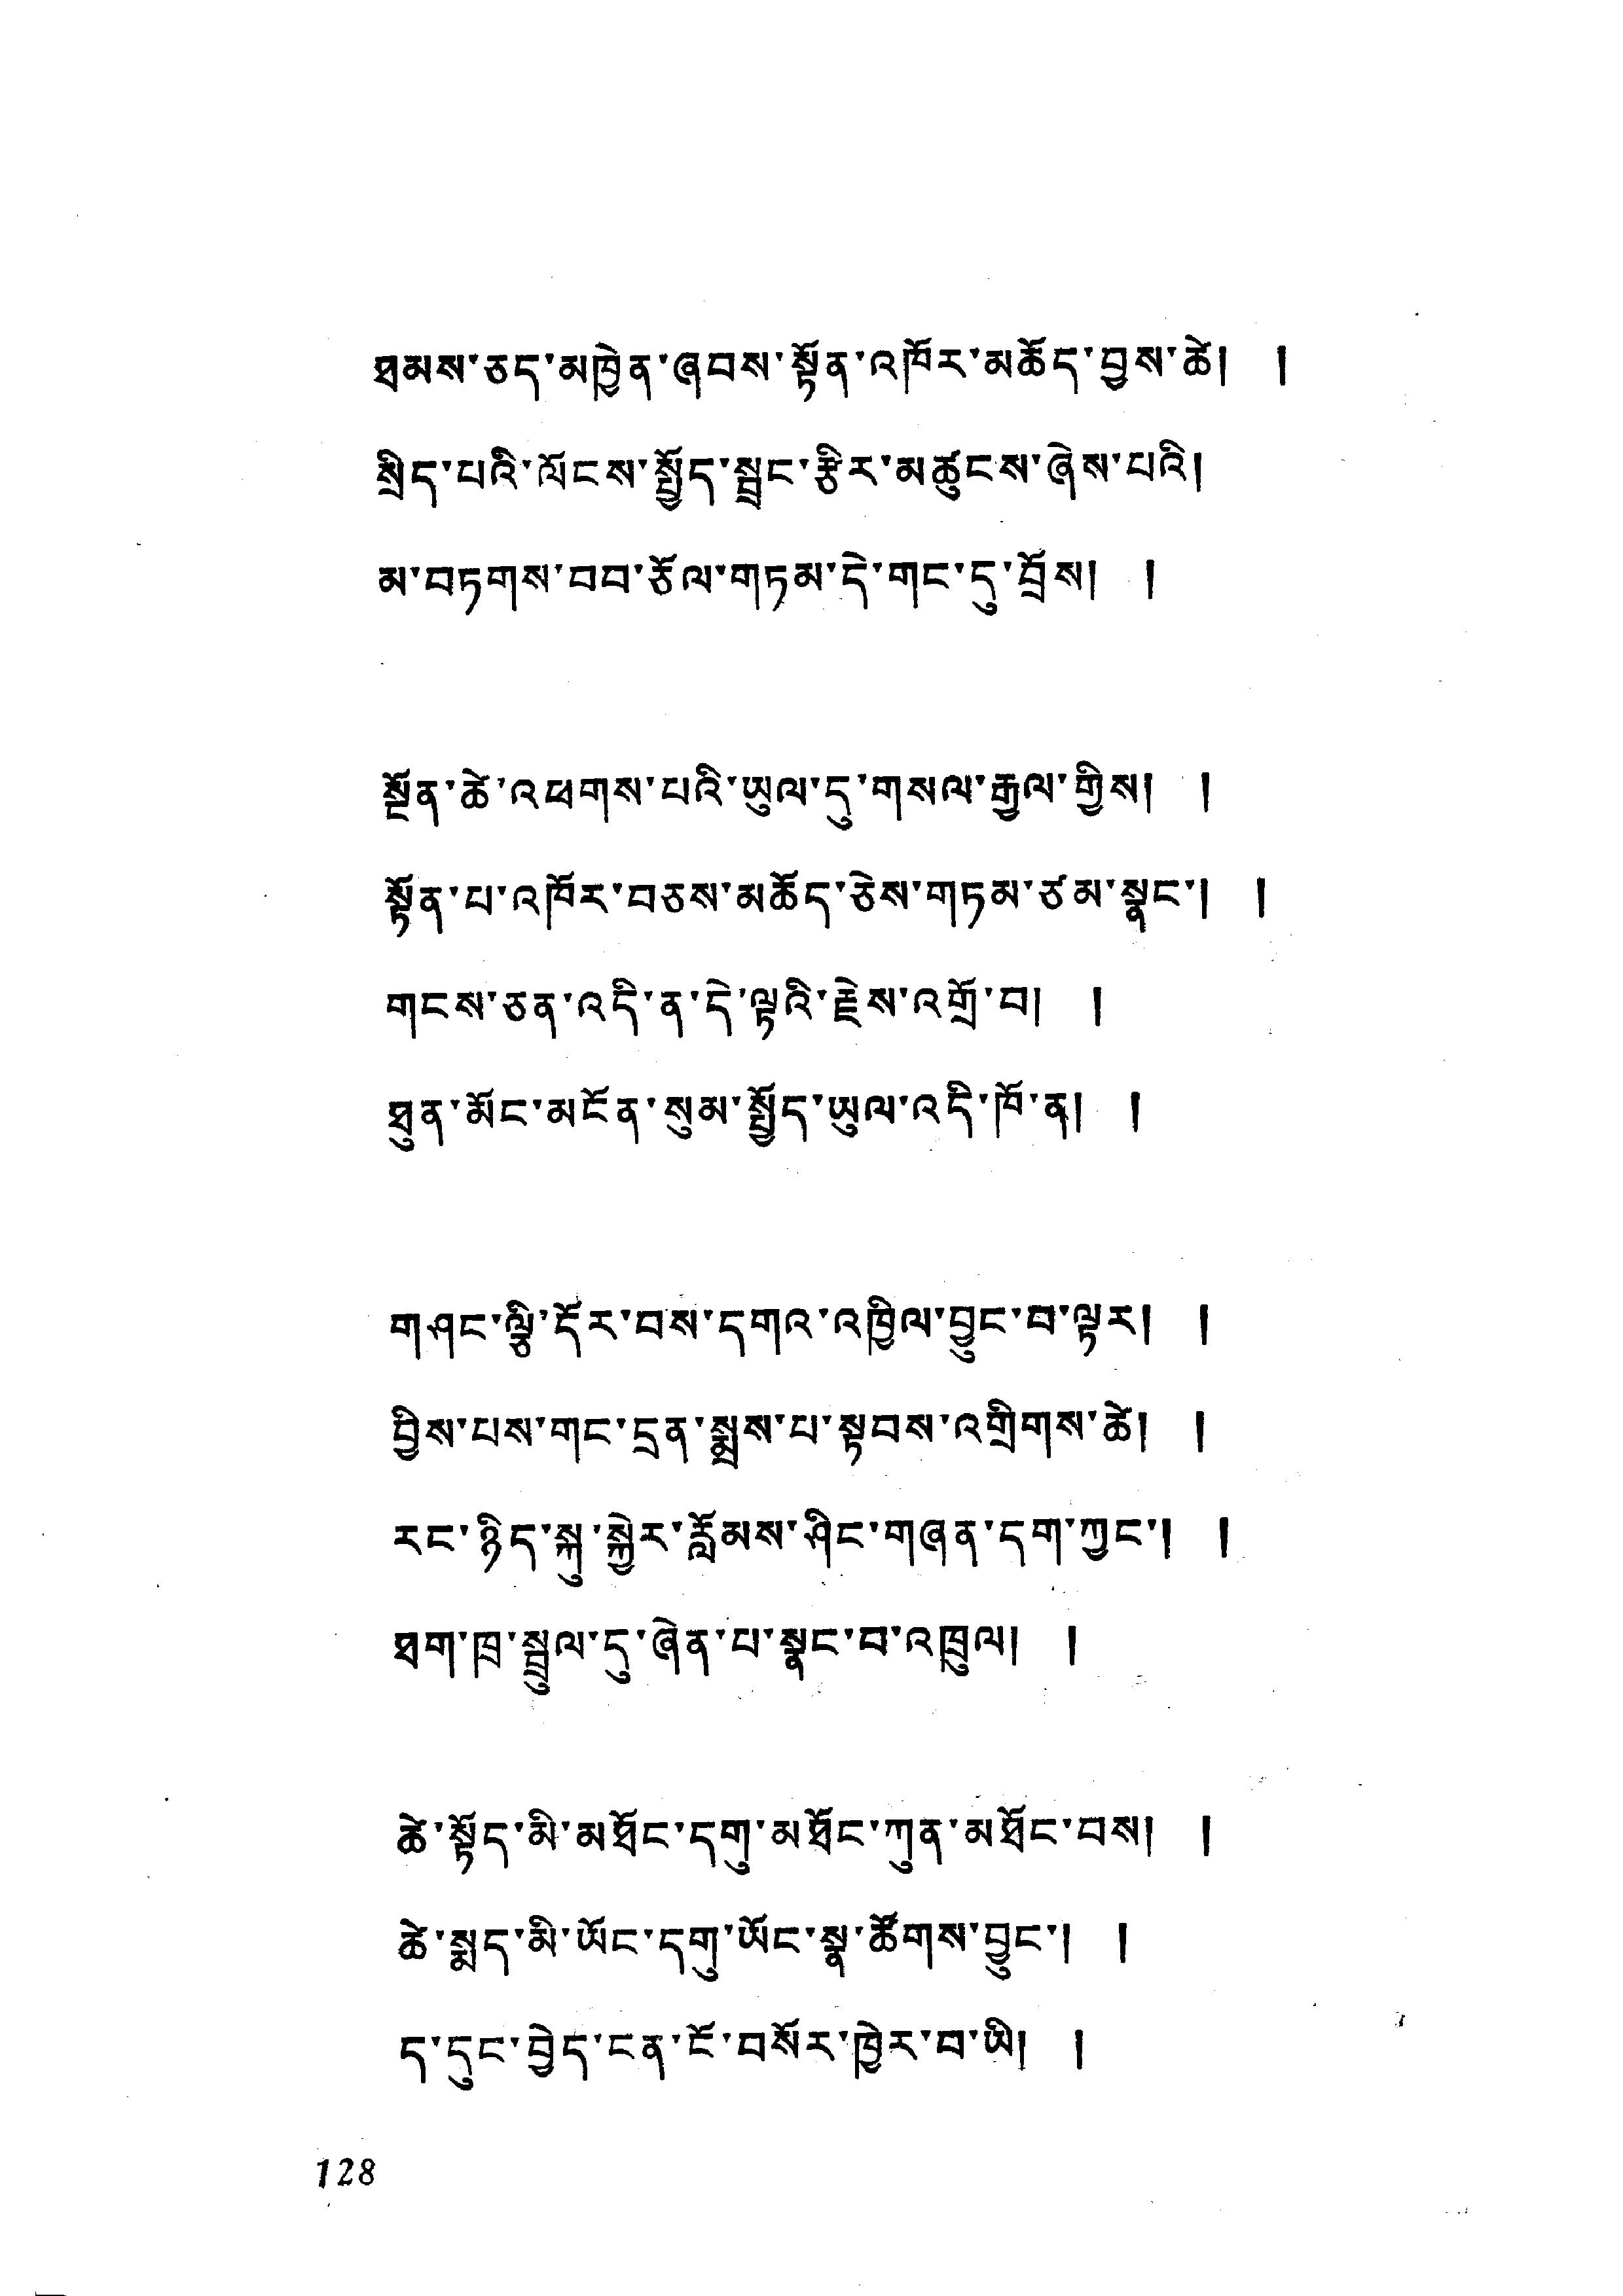ཐམས་ཅད་མཁྱེན་ཞབས་སྟོན་འཁོར་མཆོད་བྱས་ཚེ། །
སྲིད་པའི་ལོངས་སྤྱོད་སྦྲང་རྩིར་མཚུངས་ཞེས་པའི། །
མ་བཏགས་བབ་ཅོལ་གཏམ་དེ་གང་དུ་བྲོས། །
སྔོན་ཚེ་འཕགས་པའི་ཡུལ་དུ་གསལ་རྒྱལ་གྱིས། །
སྟོན་པ་འཁོར་བཅས་མཆོད་ཅེས་གཏམ་ཙམ་སྣང་། །
གངས་ཅན་འདི་ན་དེ་ལྟའི་རྗེས་འགྲོ་བ། །
ཐུན་མོང་མངོན་སུམ་སྤྱོད་ཡུལ་འདི་ཁོ་ན། །
གཤང་ལྕི་དོར་བས་དགའ་འཁྱིལ་བྱུང་བ་ལྟར། །
བྱིས་པས་གང་དྲན་སྨྲས་པ་སྟབས་འགྲིགས་ཚེ། །
རང་ཉིད་སྐུ་སྐྱེར་རློམས་ཤིང་གཞན་དག་ཀྱང་། །
ཐག་ཁྲ་སྦྲུལ་དུ་ཞེན་པ་སྣང་བ་འཁྲུལ། །
ཚེ་སྟོད་མི་མཐོང་དགུ་མཐོང་ཀུན་མཐོང་བས། །
ཚེ་སྨད་མི་ཡོང་དགུ་ཡོང་སྣ་ཚོགས་བྱུང་། །
ད་དུང་བྱེད་ངན་ངོ་བསོར་ཁྱེར་བ་ཡི། །
128
